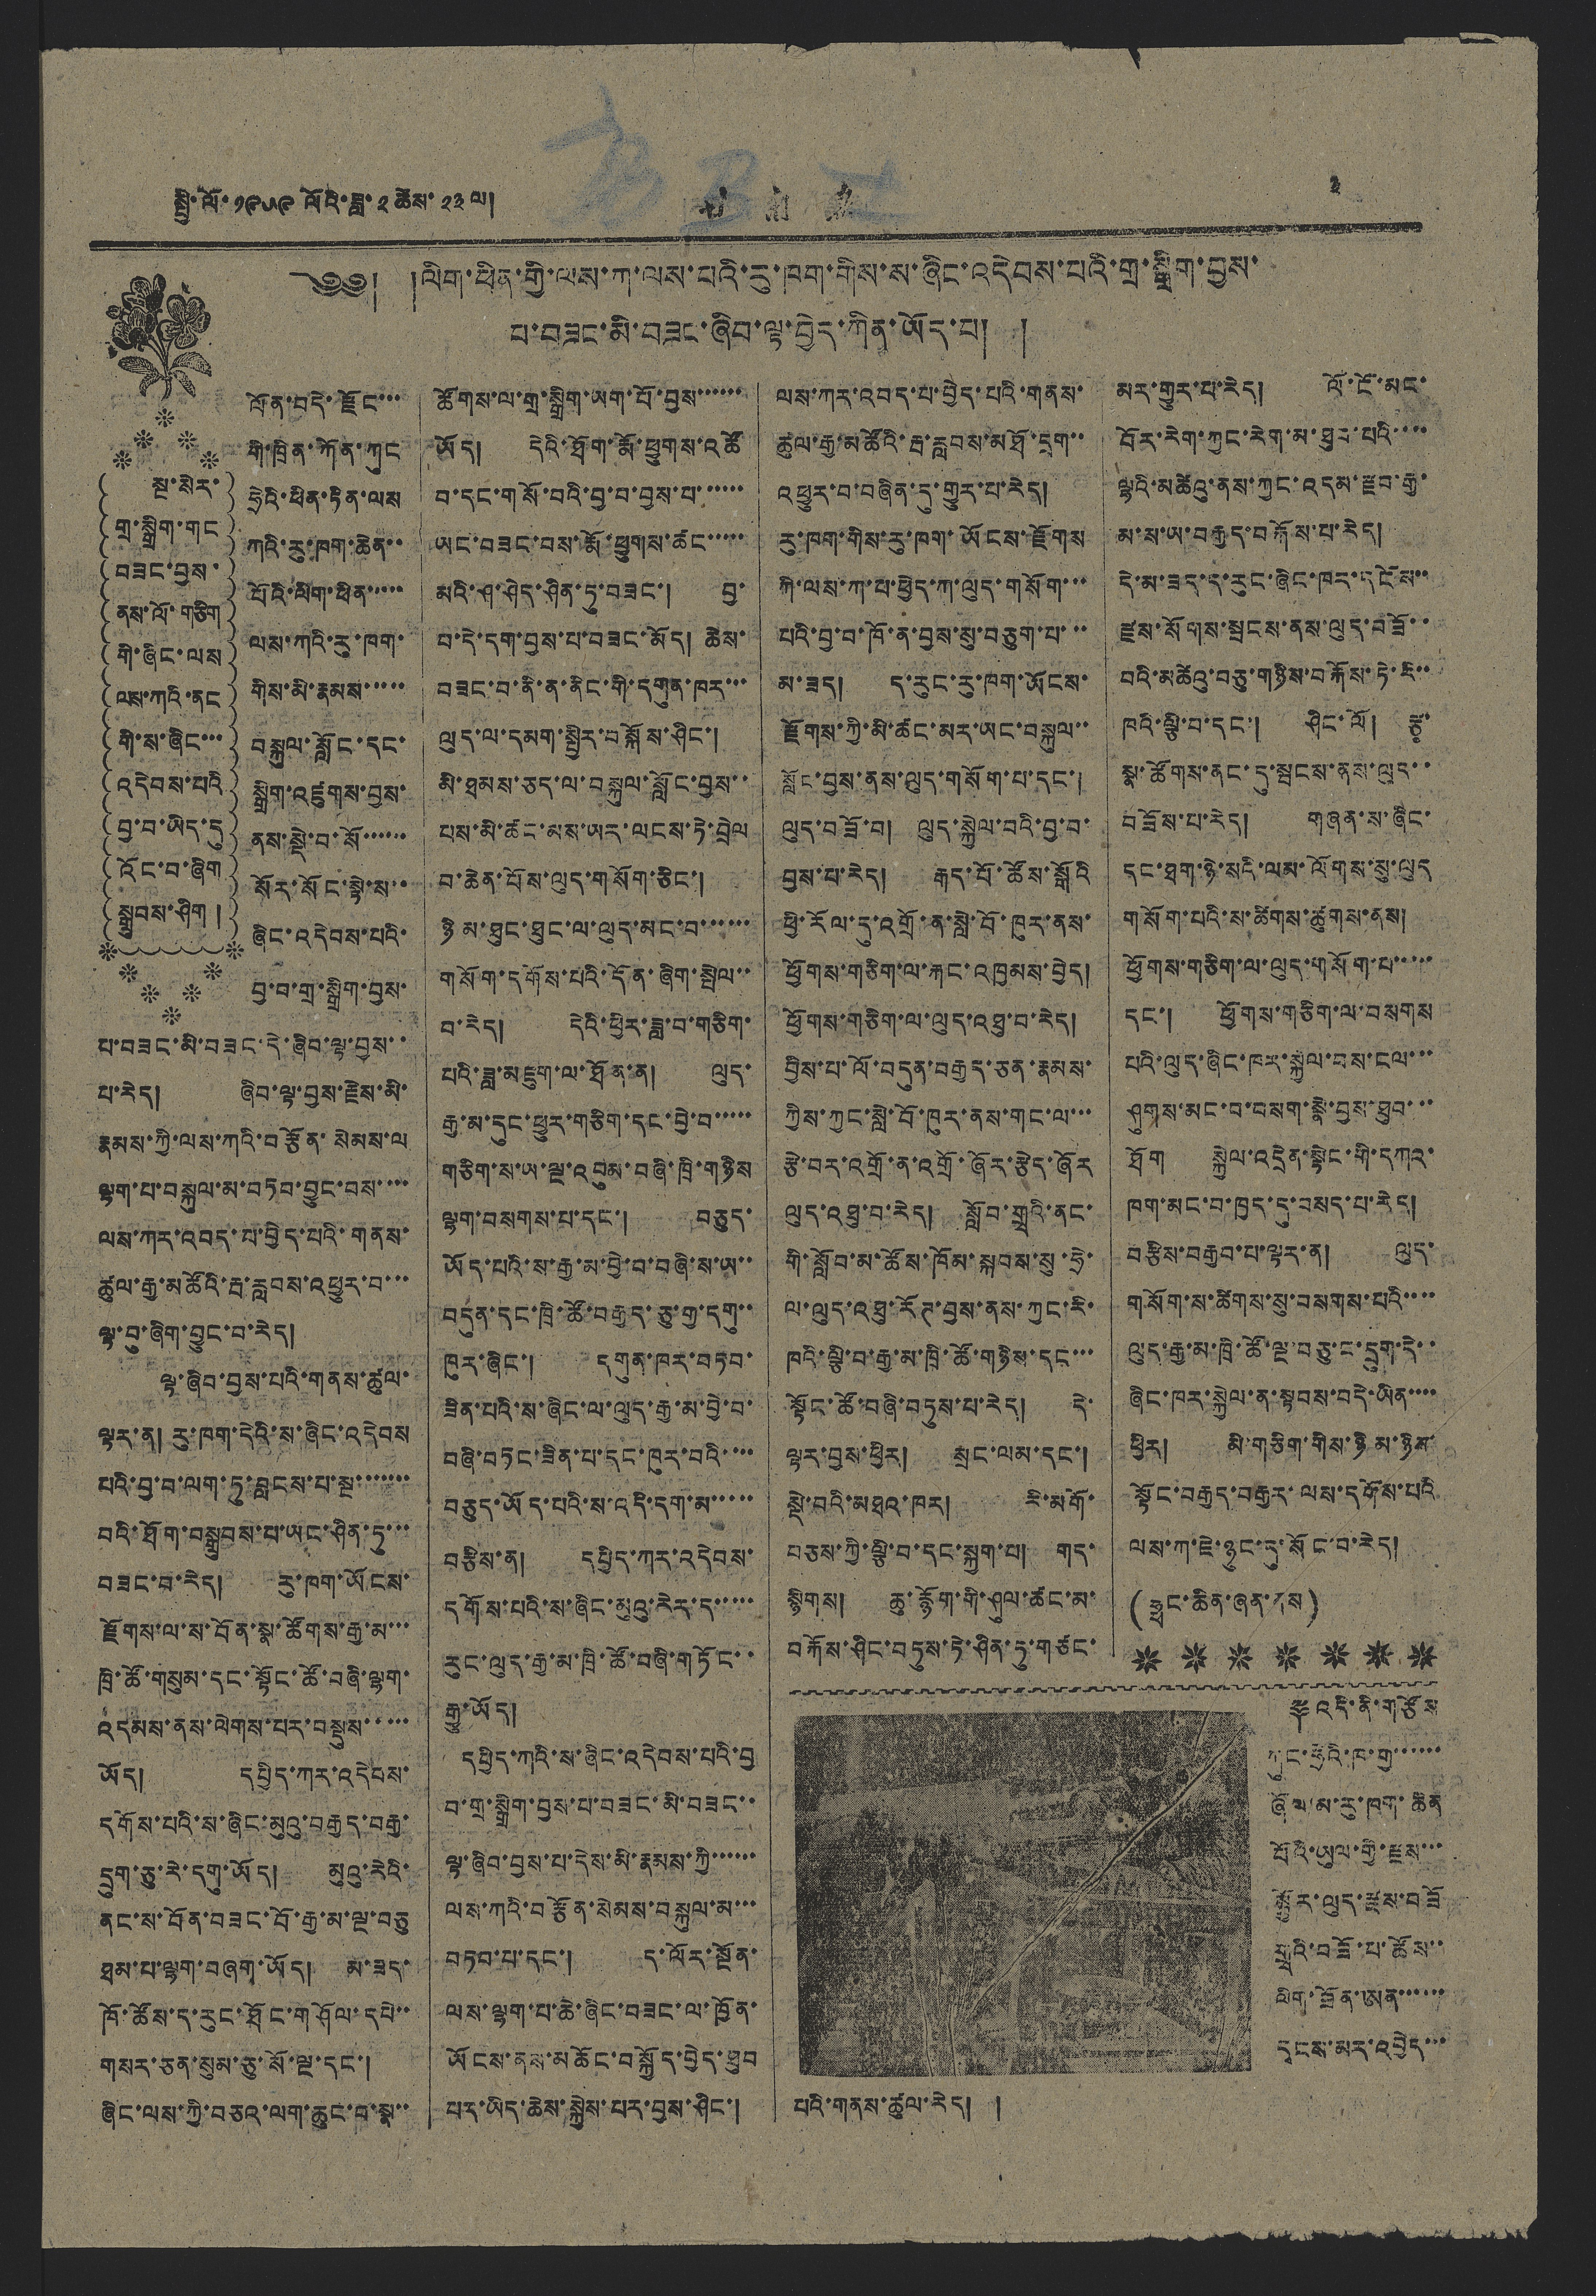སྤྱི་ལོ་ ༡༩༥༩ ལོའི་ཟླ་ ༢ ཚེས་ ༢༣ ལ། 甘 南 報 ༣
༄༅། །ལིག་ཕིན་གྱི་ལས་ཀ་ལས་པའི་རུ་ཁག་གིས་ས་ཞིང་འདེབས་པའི་གྲ་སྒྲིག་བྱས་
པ་བཟང་མི་བཟང་ཞིབ་ལྟ་བྱེད་ཀིན་ཡོད་པ། །
སྔ་སེར་
གྲ་སྒྲིག་གང
བཟང་བྱས་
ནས་ལོ་གཅིག
གི་ཞིང་ལས
ལས་ཀའི་ནང
གི་ས་ཞིང་་་
འདེབས་པའི
བྱ་བ་ཡིད་དུ
འོང་བ་ཞིག
སྒྲུབས་ཤིག །
ལོན་བདེ་རྫོང་་་
གི་ཁྲིན་ཀོན་ཀུང
ཧྲེའི་ཕིན་ཏིན་ལས
ཀའི་རུ་ཁག་ཆེན་་
པོའི་ལིག་ཕིན་་་་་
ལས་ཀའི་རུ་ཁག་
གིས་མི་རྣམས་་་་་
བསྐུལ་སློང་དང་
སྒྲིག་འཛུགས་བྱས་
ནས་སྡེ་བ་སོ་་་་་་
སོར་སོང་སྟེ་ས་་
ཞིང་འདེབས་པའི་
བྱ་བ་གྲ་སྒྲིག་བྱས་
པ་བཟང་མི་བཟང་དེ་ཞིབ་ལྟ་བྱས་་
པ་རེད། ཞིབ་ལྟ་བྱས་རྗེས་མི་
རྣམས་ཀྱི་ལས་ཀའི་བརྩོན་སེམས་ལ
ལྟག་པ་བསྐུལ་མ་བཏབ་བྱུང་བས་་་་
ལས་ཀར་འབད་པ་བྱེད་པའི་གནས་
ཚུལ་རྒྱ་མཚོའི་རྦ་རླབས་འཕྱུར་བ་་་
ལྟ་བུ་ཞིག་བྱུང་བ་རེད།
ལྟ་ཞིབ་བྱས་པའི་གནས་ཚུལ་
ལྟར་ན། རུ་ཁག་དེའི་ས་ཞིང་འདེབས
པའི་བྱ་བ་ལག་ཏུ་བླངས་པ་སྔ་་་་་་
བའི་ཐོག་བསྒྲུབས་པ་ཡང་ཤིན་ཏུ་་་
བཟང་བ་རེད། རུ་ཁག་ཡོངས་
རྫོགས་ལ་ས་བོན་སྣ་ཚོགས་རྒྱ་མ་་་
ཁྲི་ཚོ་གསུམ་དང་སྟོང་ཚོ་བཞི་ལྷག་
འདམས་ནས་ལེགས་པར་བསྡུས་་་་་
ཡོད། དཔྱིད་ཀར་འདེབས་
དགོས་པའི་ས་ཞིང་མུའུ་བརྒྱད་བརྒྱ་
དྲུག་ཅུ་རེ་དགུ་ཡོད། མུའུ་རེའི་
ནང་ས་བོན་བཟང་བོ་རྒྱ་མ་ལྔ་བཅུ
ཐམ་པ་ལྷག་བཞག་ཡོད། མ་ཟད་
ཁོ་ཚོས་ད་རུང་ཐོང་གཤོལ་དཔེ་་
གསར་ཅན་སུམ་ཅུ་སོ་ལྔ་དང་།
ཞིང་ལས་ཀྱི་བཅའ་ལག་ཆུང་བ་སྣ་་
ཚོགས་ལ་གྲ་སྒྲིག་ཡག་པོ་བྱས་་་་་་
ཡོད། དེའི་ཐོག་རྨོ་ཕྱུགས་འཚོ
བ་དང་གསོ་བའི་བྱ་བ་བྱས་པ་་་་་་
ཡང་བཟང་བས་རྨོ་ཕྱུགས་ཚང་་་་་
མའི་ཤ་ཤེད་ཤིན་ཏུ་བཟང་། བྱ་
བ་དེ་དག་བྱས་པ་བཟང་མོད། ཆེས་
བཟང་བ་ནི་ན་ནིང་གི་དགུན་ཁར་་་
ལུད་ལ་དམག་སྤྱིར་བསྐོས་ཤིང་།
མི་ཐམས་ཅད་ལ་བསྐུལ་སློང་བྱས་་
པས་མི་ཚང་མས་ཡར་ལངས་ཏེ་བྲེལ
བ་ཆེན་པོས་ལུད་གསོག་ཅིང་།
ཉི མ་ཐུང་ཐུང་ལ་ལུད་མང་བ་་་་་་
གསོག་དགོས་པའི་དོན་ཞིག་སྤེལ་་
བ་རེད། དེའི་ཕྱིར་ཟླ་བ་གཅིག་
པའི་ཟླ་མཇུག་ལ་ཐོན་ན། ལུད་
རྒྱ་མ་དུང་ཕྱུར་གཅིག་དང་བྱེ་བ་་་་་
གཅིག་ས་ཡ་ལྔ་འབུམ་བཞི་ཁྲི་གཉིས
ལྷག་བསགས་པ་དང་། བཅུད་
ཡོད་པའི་ས་རྒྱ་མ་བྱེ་བ་བཞི་ས་ཡ་་
བདུན་དང་ཁྲི་ཚོ་བརྒྱད་ཅུ་གྱ་དགུ་་
ཁུར་ཞིང་། དགུན་ཁར་བཏབ་
ཟིན་པའི་ས་ཞིང་ལ་ལུད་རྒྱ་མ་བྱེ་བ་
བཞི་བཏང་ཟིན་པ་དང་ཁུར་བའི་་་་
བཅུད་ཡོད་པའི་ས་འདི་དག་མ་་་་་
བརྩིས་ན། དཔྱིད་ཀར་འདེབས་
དགོས་པའི་ས་ཞིང་མུའུ་རེར་ད་་་་་
རུང་ལུད་རྒྱ་མ་ཁྲི་ཚོ་བཞི་གཏོང་་
རྒྱུ་ཡོད།
དཔྱིད་ཀའི་ས་ཞིང་འདེབས་པའི་བྱ
བ་གྲ་སྒྲིག་བྱས་པ་བཟང་མི་བཟང་་
ལྟ་ཞིབ་བྱས་པ་དེས་མི་རྣམས་ཀྱི་་་་་་
ལས་ཀའི་བརྩོན་སེམས་བསྐུལ་མ་་་
བཏབ་པ་དང་། ད་ལོར་སྔོན་
ལས་ལྷག་པ་ཆེ་ཞིང་བཟང་ལ་ཁྱོན་
ཡོངས་ནས་མཆོང་བསྐྱོད་བྱེད་ཐུབ
པར་ཡིད་ཆེས་སྐྱེས་པར་བྱས་ཤིང་།
ལས་ཀར་འབད་པ་བྱེད་པའི་གནས་
ཚུལ་རྒྱ་མཚོའི་རྦ་རླབས་མཐོ་དྲག་་
འཕྱུར་བ་བཞིན་དུ་གྱུར་པ་རེད།
རུ་ཁག་གིས་རུ་ཁག་ཡོངས་རྫོགས
ཀི་ལས་ཀ་པ་ཕྱེད་ཀ་ལུད་གསོག་་་
པའི་བྱ་བ་ཁོ་ན་བྱས་སུ་བཅུག་པ་་་
མ་ཟད། ད་རུང་རུ་ཁག་ཡོངས་
རྫོགས་ཀྱི་མི་ཚང་མར་ཡང་བསྐུལ་་
སློང་བྱས་ནས་ལུད་གསོག་པ་དང་།
ལུད་བཟོ་བ། ལུད་སྐྱེལ་བའི་བྱ་བ་
བྱས་པ་རེད། རྒད་པོ་ཚོས་སྒོའི
ཕྱི་རོལ་དུ་འགྲོ་ན་སླེ་བོ་ཁུར་ནས་
ཕྱོགས་གཅིག་ལ་རྐང་འཁྱམས་བྱེད།
ཕྱོགས་གཅིག་ལ་ལུད་འཐུ་བ་རེད།
བྱིས་པ་ལོ་བདུན་བརྒྱད་ཅན་རྣམས་
ཀྱིས་ཀྱང་སླེ་བོ་ཁུར་ནས་གང་ལ་་་
རྩེ་བར་འགྲོ་ན་འགྲོ་ཞོར་རྩེད་ཞོར
ལུད་འཐུ་བ་རེད། སློབ་གྲྭའི་ནང་
གི་སློབ་མ་ཚོས་ཁོམ་སྐབས་སུ་ཧྲེ་
ལ་ལུད་འཐུ་རོཊ་བྱས་ནས་ཀྱང་རི་
ཁའི་ལྕི་བ་རྒྱ་མ་ཁྲི་ཚོ་གཉིས་དང་་་
སྟོང་ཚོ་བཞི་བཏུས་པ་རེད། དེ་
ལྟར་བྱས་ཕྱིར། སྲང་ལམ་དང་།
སྡེ་བའི་མཐའ་ཁར། རི་མགོ་
བཅས་ཀྱི་ལྕི་བ་དང་སྐྱག་པ། གད་
སྙིགས། ཆུ་རྙོག་གི་ཤུལ་ཚང་མ་
བརྐོས་ཤིང་བཏུས་ཏེ་ཤིན་ཏུ་གཙང་
མར་གྱུར་པ་རེད། ལོ་ངོ་མང་
བོར་རེག་ཀྱང་རེག་མ་ཐུབ་པའི་་་་
ལྷའི་མཚེའུ་ནས་ཀྱང་འདམ་རྫབ་རྒྱ་
མ་ས་ཡ་བརྒྱད་བརྐོས་པ་རེད།
དེ་མ་ཟད་ད་རུང་ཞིང་ཁར་དངོས་་
རྫས་སོགས་སྦངས་ནས་ལུད་བཟོ་་
བའི་མཚེའུ་བཅུ་གཉིས་བརྐོས་ཏེ་རེ་་
ཁའི་ལྕི་བ་དང་། ཤིང་ལོ། རྩྭ་
སྣ་ཚོགས་ནང་དུ་སྦངས་ནས་ལུད་་
བཟོས་པ་རེད། གཞན་ས་ཞིང་
དང་ཐག་ཉེ་སའི་ལམ་ལོགས་སུ་ལུད
གསོག་པའི་ས་ཚིགས་ཚུགས་ནས།
ཕྱོགས་གཅིག་ལ་ལུད་གསོག་པ་་་་་
དང་། ཕྱོགས་གཅིག་ལ་བསགས
པའི་ལུད་ཞིང་ཁར་སྐྱེལ་བས་ངལ་་་
ཤུགས་མང་བ་བསག་སྣེ་བྱས་ཐུབ་་་
ཐོག སྐྱེལ་འདྲེན་སྟེང་གི་དཀའ་
ཁག་མང་བ་ཁྱད་དུ་བསད་པ་རེད།
བརྩིས་བརྒྱབ་པ་ལྟར་ན། ལུད་
གསོག་ས་ཚིགས་སུ་བསགས་པའི་་་་
ལུད་རྒྱ་མ་ཁྲི་ཚོ་ལྔ་བཅུ་ང་དྲུག་དེ་་
ཞིང་ཁར་སྐྱེལ་ན་སྟབས་བདེ་ཡིན་་་་
ཕྱིར། མི་གཅིག་གིས་ཉི་མ་ཉིས་
སྟོང་བརྒྱད་བརྒྱར་ལས་དགོས་པའི
ལས་ཀ་ཇེ་ཉུང་དུ་སོང་བ་རེད།
(ཧྥང་ཆིན་ཞན་ནས)
༈ འདི་ནི་གཙོས
ཀུང་ཧྲེའི་ཁ་གྱ་་་་་་
ཞོལ་མ་རུ་ཁག་ཆེན
པོའི་ཡུལ་གྱི་རྫས་་་
སྦྱོར་ལུད་རྫས་བཟོ
གྲྭའི་བཟོ་པ་ཚོས་་
ལིག་ཟོན་ཨན་་་་་་
དྭངས་མར་འབྱེད་་་
པའི་གནས་ཚུལ་རེད། །
